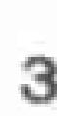3
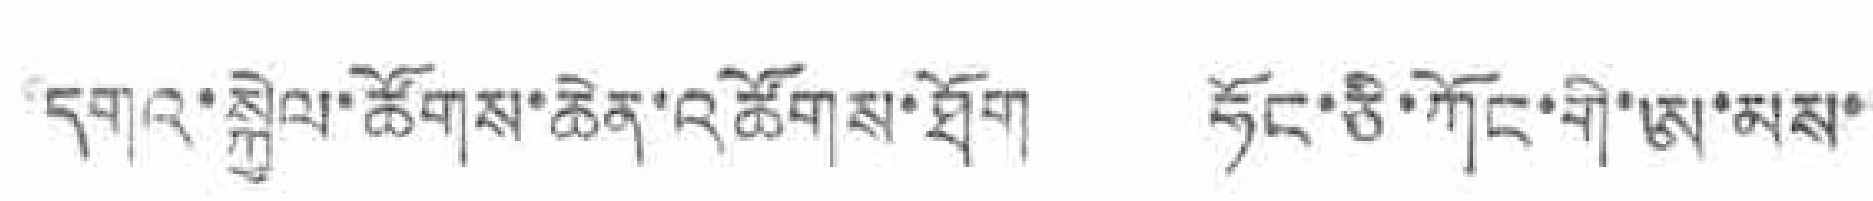དགའ་སྐྱེལ་ཚོགས་ཆེན་འཚོགས་ཐོག ཧོང་ཅི་ཀོང་གི་ཨ་མས་
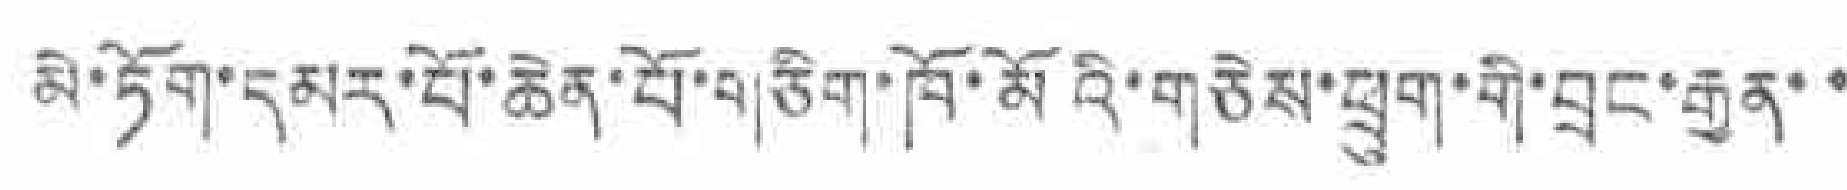མེ་ཏོག་དམར་བོ་ཆེན་པོ་གཅིག་ཁོ་མོའི་གཅེས་ཕྲུག་གི་བྲང་རྒྱན་་
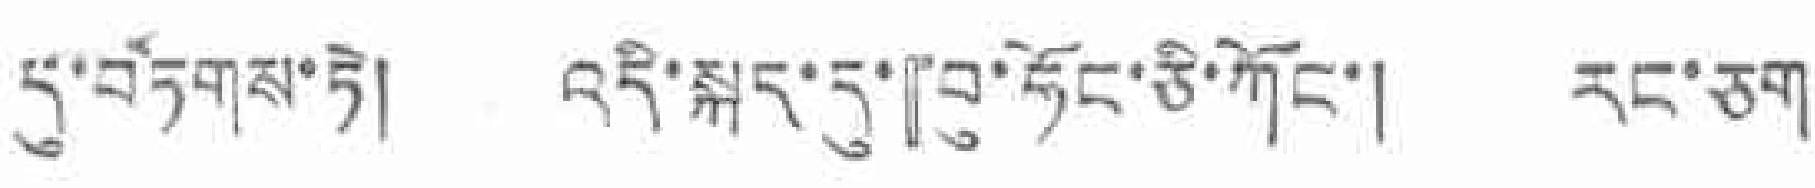དུ་བཏགས་ཏེ། འདི་སྐད་དུ་『བུ་ཏོང་ཅི་ཀོང་། དང་ཅག་
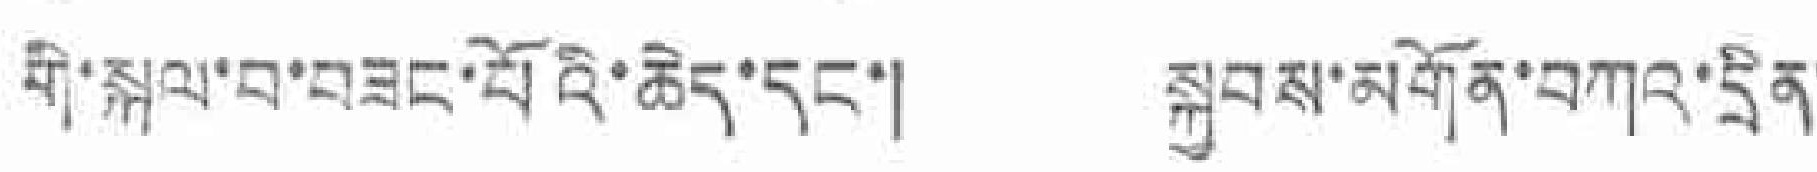གི་སྐལ་བ་བཟང་པོའི་ཆེད་དང་། སྐྱབས་མགོན་བཀའ་དྲིན་
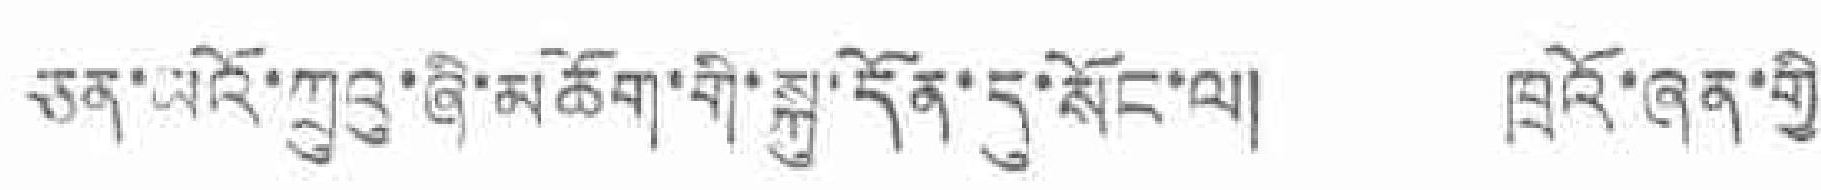ཅན་མའོ་ཀྲུའུ་ཞི་མཆོག་གི་སྐུ་དོན་དུ་སོང་ལ། ཁྲའོ་ཞན་གྱི་
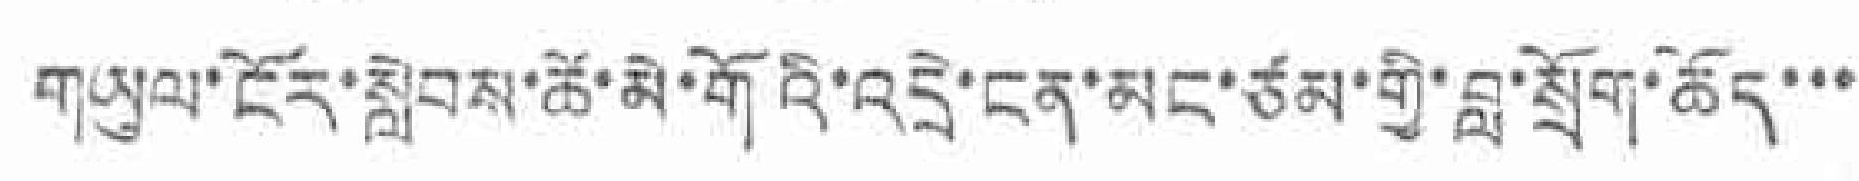གཡུལ་ངོར་སླེབས་ཚེ་མི་གོའི་འདྲེ་ངན་མང་ཙམ་གྱི་བླ་སྲོག་ཆོད་་་
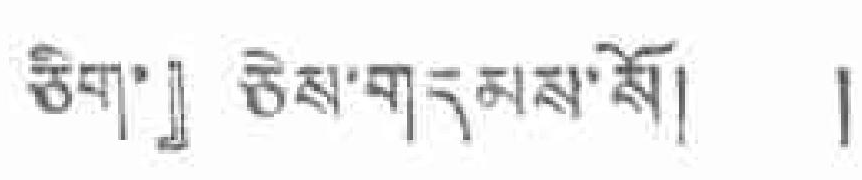ཅིག་』 ཅེས་གདམས་སོ། །
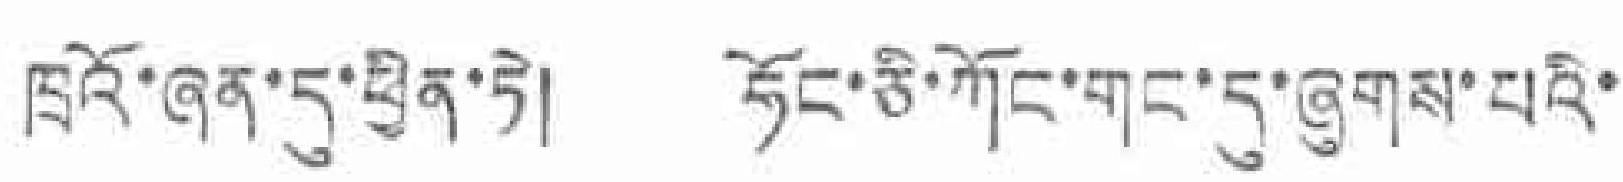ཁྲའོ་ཞན་དུ་ཕྱིན་ཏེ། ཧོང་ཅི་ཀོང་གང་དུ་ཞུགས་པའི་
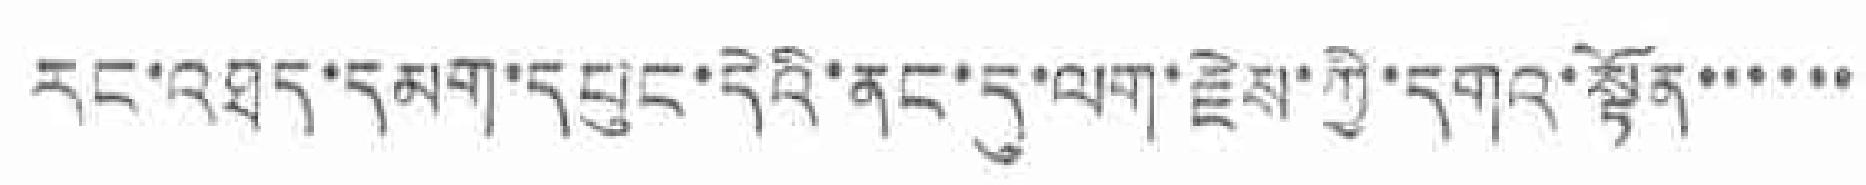དང་འཐད་དམག་དཔུང་དེའི་ནང་དུ་ལག་རྗེས་ཀྱི་དགའ་སྟོན་་་་་་་
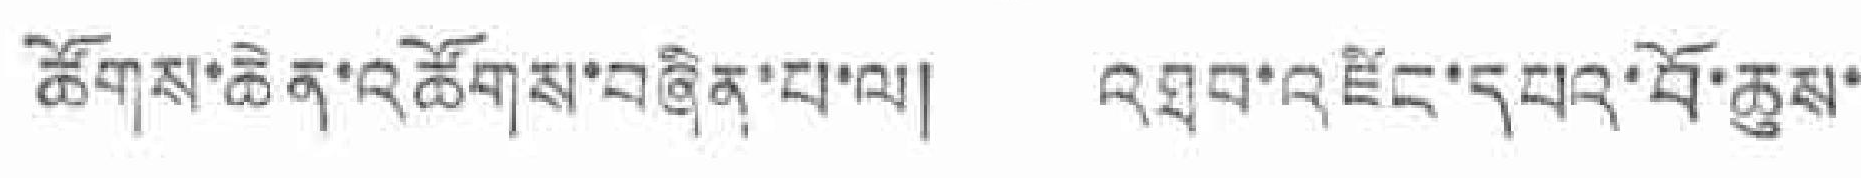ཚོགས་ཆེན་འཚོགས་བཞིན་པ་ལ། འཐབ་འཛིང་དཔའ་བོ་ཆུས་
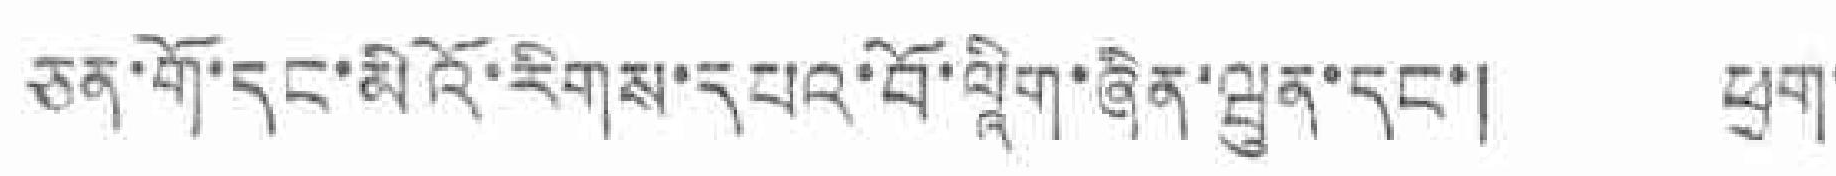ཅན་གོ་དང་མིའོ་རིགས་དཔའ་བོ་ལཱིག་ཞིན་ཝུན་དང་། ཕྱག་
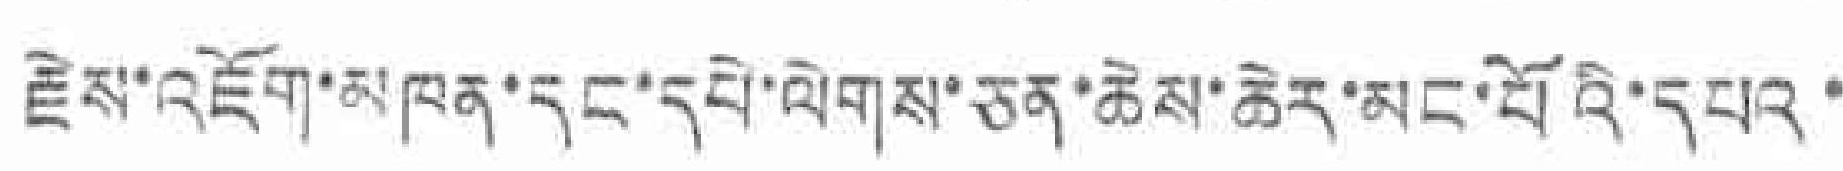རྗེས་འཇོག་མཁན་དང་དཔེ་ལེགས་ཅན་ཆེས་ཆེད་མང་པོའི་དཔའ་
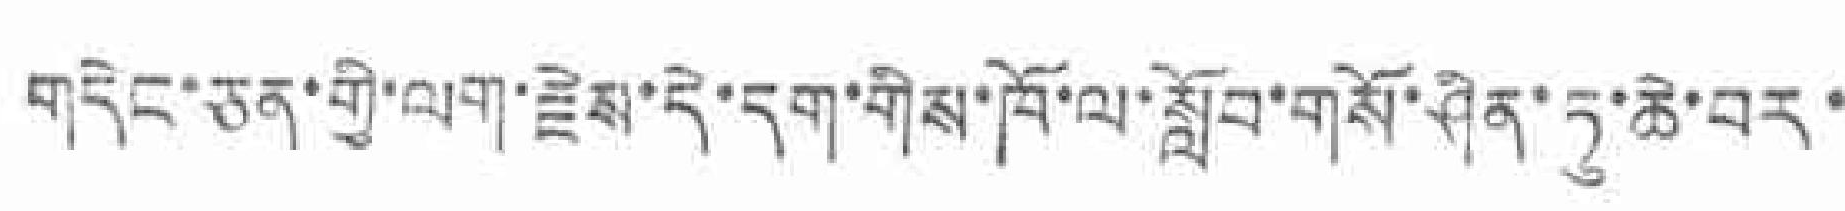གདེང་ཅན་གྱི་ལག་རྗེས་དེ་དག་གིས་ཁོ་ལ་སློབ་གསོ་ཤིན་ཏུ་ཆེ་བར་
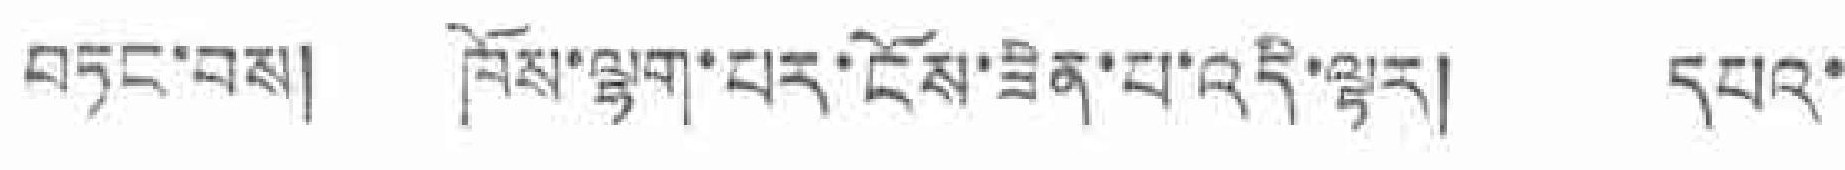བཏང་བས། ཁོས་ལྷག་པར་ངོས་ཟིན་པ་འདི་ལྟར། དཔའ་
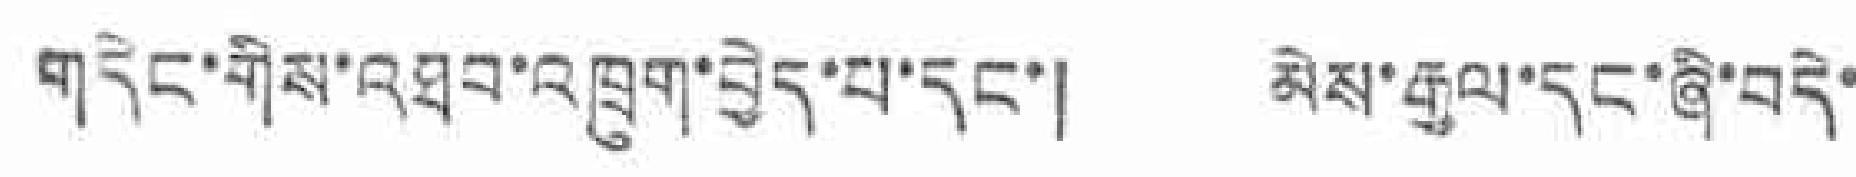གདེང་གིས་འཐབ་འཁྲུག་བྱེད་པ་དང་། མེས་རྒྱལ་དང་ཞི་བདེ་
